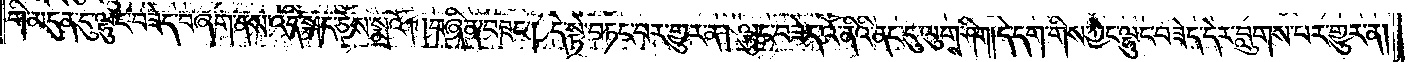གི་མདུན་དུ་ལྷུང་བཟེད་བཞག་ནས་འདི་སྐད་ཅེས་སྨྲའོ། །བཞིན་བཟང༌། དེ་སྟེ་བཏང་བར་གྱུར་ན། ལྷུང་བཟེད་འོ་ནིའི་ནང་དུ་ལུགས་ཤིག །དེ་དག་གིས་ཀྱང་ལྷུང་བཟེད་དེར་བླུགས་པར་གྱུར་ན།
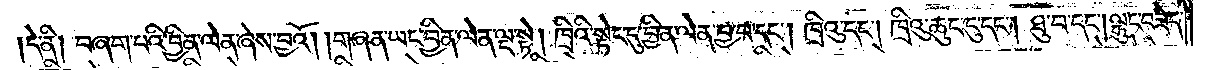དེ་ནི། བཞག་པའི་བྱིན་ལེན་ཞེས་བྱའོ། །གཞན་ཡང་བྱིན་ལེན་ལྔ་སྟེ། ཁྲིའི་སྟེང་དུ་བྱིན་ལེན་བྱ་བ་དང༌། ཁྲིའུ་དང༌། ཁྲིའུ་ཆུང་ངུ་དང༌། ཐུ་བ་དང༌། ལྷུང་བཟེད་
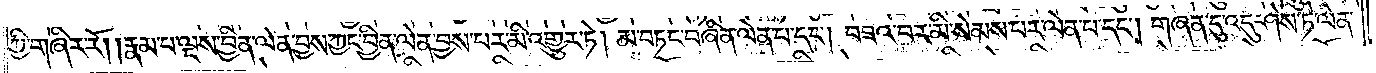ཀྱི་གཞིར་རོ། །རྣམ་པ་ལྔས་བྱིན་ལེན་བྱས་ཀྱང་བྱིན་ལེན་བྱས་པར་མི་འགྱུར་ཏེ། མ་བཏང་བཞིན་ལེན་པ་དང༌། བཟའ་བར་མི་སེམས་པར་ལེན་པ་དང༌། གཞན་དུ་འདུ་ཤེས་ཏེ་ལེན་
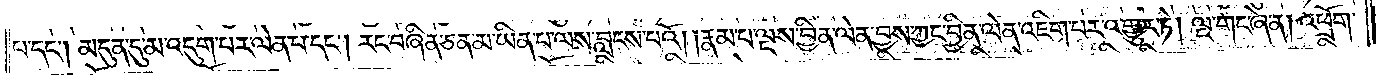པ་དང༌། མདུན་དུ་འདུག་པར་ལེན་པ་དང༌། རང་བཞིན་ཅན་མ་ཡིན་པ་ལས་བླངས་པའོ། །རྣམ་པ་ལྔས་བྱིན་ལེན་བྱས་ཀྱང་བྱིན་ལེན་འཇིག་པར་འགྱུར་ཏེ། ལྔ་གང་ཞེ་ན། འཕྲོག་
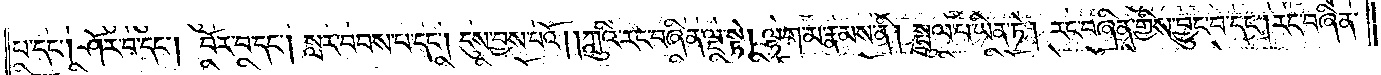པ་དང༌། ཤོར་བ་དང༌། བོར་བ་དང༌། སླར་བབས་པ་དང༌། དུས་བྱས་པའོ། །ཀླུའི་རང་བཞིན་ལྔ་སྟེ། ལྷག་མ་རྣམས་ནི། སྤྲུལ་པ་ཡིན་ཏེ། རང་བཞིན་གྱིས་བྱུང་བ་དང༌། རང་བཞིན་
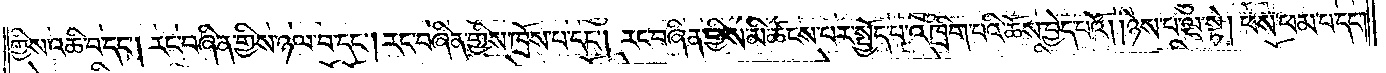གྱིས་འཆི་བ་དང༌། རང་བཞིན་གྱིས་ཉལ་བ་དང༌། རང་བཞིན་གྱིས་ཁྲོས་པ་དང༌། རང་བཞིན་གྱིས་མི་ཚངས་པར་སྤྱོད་པ་འཁྲིག་པའི་ཆོས་བྱེད་པའོ། །ཉེས་པ་ལྔ་སྟེ། ཕས་ཕམ་པ་དང༌།
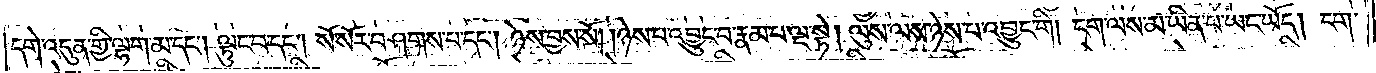དགེ་འདུན་གྱི་ལྷག་མ་དང༌། ལྟུང་བ་དང༌། སོ་སོར་བཤགས་པ་དང༌། ཉེས་བྱས་སོ། །ཉེས་པ་འབྱུང་བ་རྣམ་པ་ལྔ་སྟེ། ལུས་ལས་ཉེས་པ་འབྱུང་གི། ངག་ལས་མ་ཡིན་པ་ཡང་ཡོད། ངག་
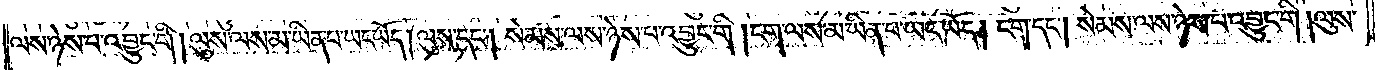ལས་ཉེས་པ་འབྱུང་གི། ལུས་ལས་མ་ཡིན་པ་ཡང་ཡོད། ལུས་དང༌། སེམས་ལས་ཉེས་པ་འབྱུང་གི། ངག་ལས་མ་ཡིན་པ་ཡང་ཡོད། ངག་དང༌། སེམས་ལས་ཉེས་པ་འབྱུང་གི། ལུས་
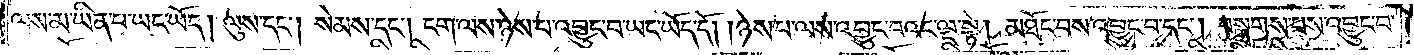ལུས་མ་ཡིན་པ་ཡང་ཡོད། ལུས་དང༌། སེམས་དང༌། ངག་ལས་ཉེས་པ་འབྱུང་བ་ཡང་ཡོད་དོ། །ཉེས་པ་ལས་འབྱུང་བའང་ལྔ་སྟེ། མཐོང་བས་འབྱུང་བ་དང༌། བསྒྲགས་པས་འབྱུང་བ་
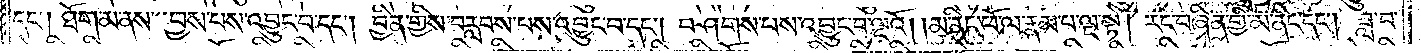དང༌། ཐོག་མ་ནས་བྱས་པས་འབྱུང་བ་དང༌། བྱིན་གྱིས་བརླབས་པས་འབྱུང་བ་དང༌། བཤགས་པས་འབྱུང་བ་ལྔའོ། །མ་ནིང་ཕོ་ལ་རྣམ་པ་ལྔ་སྟེ། རང་བཞིན་གྱི་མ་ནིང་དང༌། ཟླ་བ་
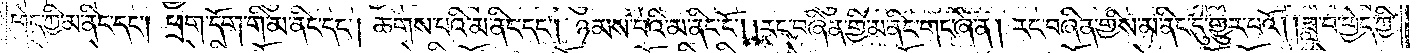ཕྱེད་ཀྱི་མ་ནིང་དང༌། ཕྲག་དོག་གི་མ་ནིང་དང༌། ཆགས་པའི་མ་ནིང་དང༌། ཉམས་པའི་མ་ནིང་ངོ༌། །རང་བཞིན་གྱི་མ་ནིང་གང་ཞེ་ན། རང་བཞིན་གྱིས་མ་ནིང་དུ་གྱུར་བའོ། །ཟླ་བ་ཕྱེད་ཀྱི་
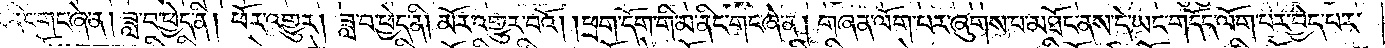མ་ནིང་གང་ཞེ་ན། ཟླ་བ་ཕྱེད་ནི། ཕོར་འགྱུར། ཟླ་བ་ཕྱེད་ནི། མོར་འགྱུར་བའོ། །ཕྲག་དོག་གི་མ་ནིང་གང་ཞེ་ན། གཞན་ལོག་པར་ཞུགས་པ་མཐོང་ནས་དེ་ཡང་གདོད་ལོག་པར་བྱེད་པར་
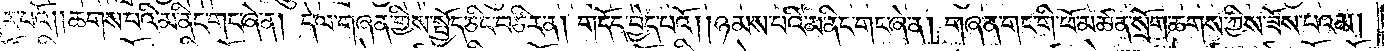གྱུར་པའོ། །ཆགས་པའི་མ་ནིང་གང་ཞེ་ན། དེ་ལ་གཞན་གྱིས་སྤྱོད་ཅིང་བཙིར་ན། གདོད་བྱེད་པའོ། །ཉམས་པའི་མ་ནིང་གང་ཞེ་ན། གཞན་གང་གི་ཕོ་མཚན་སྲོག་ཆགས་ཀྱིས་ཟོས་པའམ།
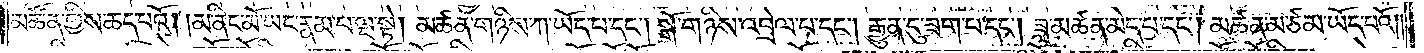མཚོན་གྱིས་ཆད་པའོ། །མ་ནིང་མོ་ཡང་རྣམ་པ་ལྔ་སྟེ། མཚན་གཉིས་ཀ་ཡོད་པ་དང༌། སྒོ་གཉིས་འབྲེལ་པ་དང༌། རྒྱུན་དུ་ཟག་པ་དང༌། ཟླ་མཚན་མེད་པ་དང༌། མཚན་མ་ཙམ་ཡོད་པའོ། །
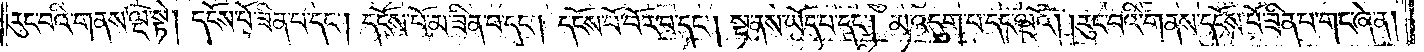རུང་བའི་གནས་ལྔ་སྟེ། དངོས་པོ་ཟིན་པ་དང༌། དངོས་པོ་མ་ཟིན་བ་དང༌། དངོས་པོ་བོར་བ་དང༌། སྔ་ནས་ཡོད་པ་དང༌། མ་འདུག་པ་དང་ལྔའོ། །རུང་བའི་གནས་དངོས་པོ་ཟིན་པ་གང་ཞེ་ན།
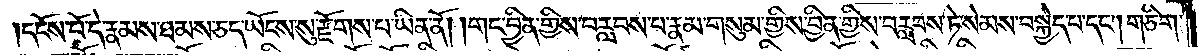དངོས་པོ་དེ་རྣམས་ཐམས་ཅད་ཡོངས་སུ་རྫོགས་པ་ཡིན་ནོ། །གང་བྱིན་གྱིས་བརླབས་པ་རྣམ་གསུམ་གྱིས་བྱིན་གྱིས་བརླབས་ཏེ་སེམས་བསྐྱེད་པ་དང༌། གཅིག་
